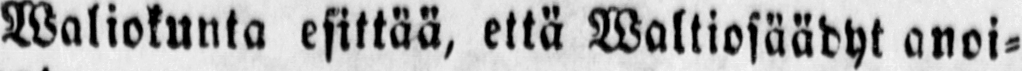Waliokunta esittää, että Waltiosäädyt anoi-
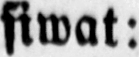siwat:
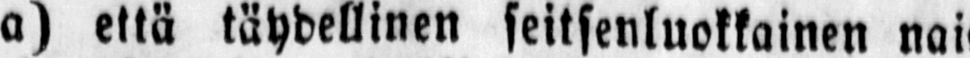a) että täydellinen seitsenluokkainen nais-
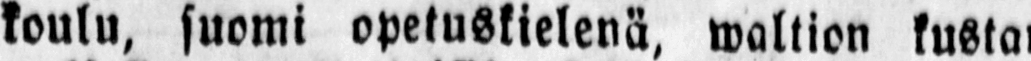koulu, suomi opetuskielenä, waltion kustan-
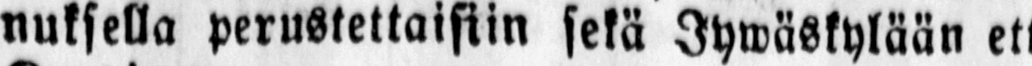nuksella perustettaisiin setä Jywäskylään että
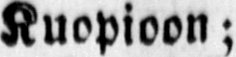Kuopioon;
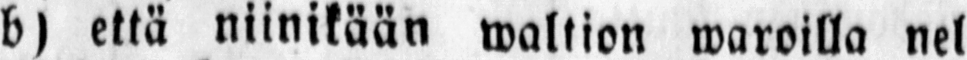b) että niinikään waltion waroilla neli-
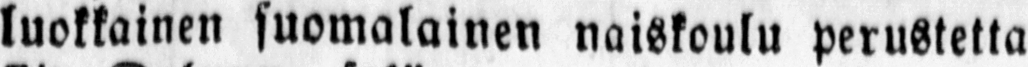luokkainen suomalainen naiskoulu perustettai-
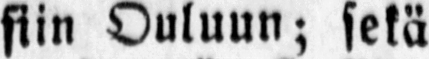siin Ouluun; sekä
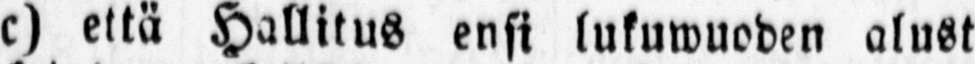c) että Hallitus ensi lukuwuoden alusta
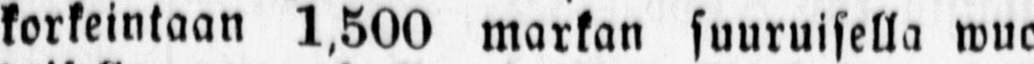korkeintaan 1.500 markan suuruisella wuo-
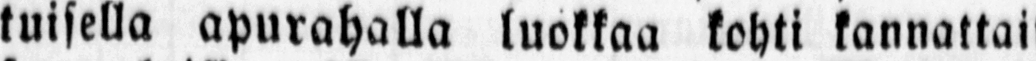tuisella apurahalla luokkaa kohti kannattaisi
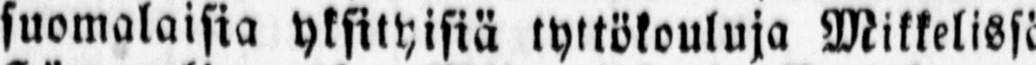suomalaisia yksityisiä tyttökouluja Mikkelissä,
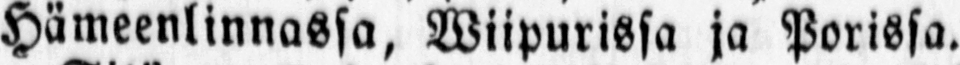Hämeenlinnassa, Wiipurissa ja Porissa.
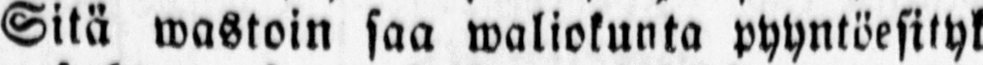Sitä wastoin saa waliokunta pyyntöesityk-
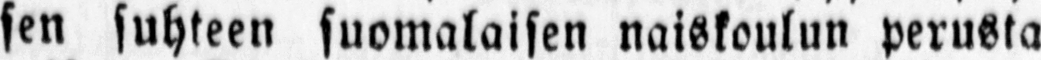sen suhteen suomalaisen naiskoulun perusta-
